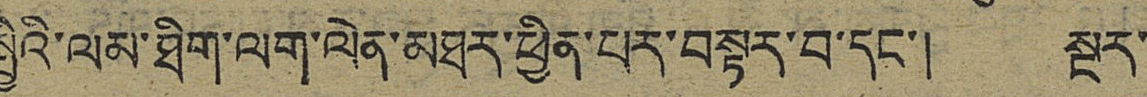སྤྱིའི་ལམ་ཐིག་ལག་ལེན་མཐར་ཕྱིན་པར་བསྟར་བ་དང་། སྔར་
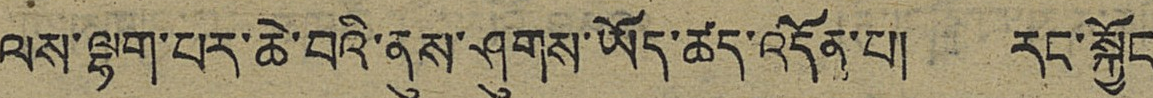ལས་ལྷག་པར་ཆེ་བའི་ནུས་ཤུགས་ཡོད་ཚད་འདོན་པ། རང་སྐྱོང་
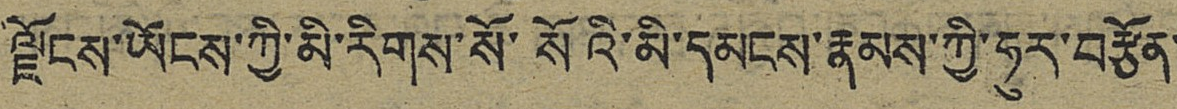ལྗོངས་ཡོངས་ཀྱི་མི་རིགས་སོ་སོའི་མི་དམངས་རྣམས་ཀྱི་ཧུར་བརྩོན་
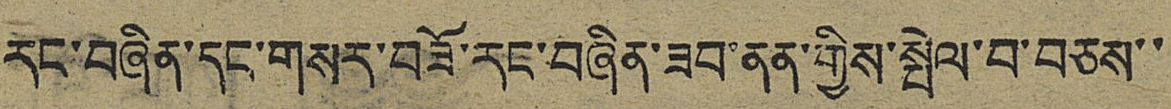རང་བཞིན་དང་གསར་བཟོ་རང་བཞིན་ཟབ་ནན་གྱིས་སྤེལ་བ་བཅས་་
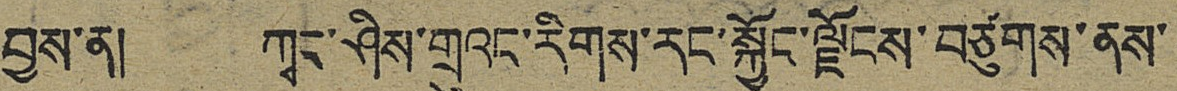བྱས་ན། ཀྭང་ཤིས་གྲུའང་རིགས་རང་སྐྱོང་ལྗོངས་བཙུགས་ནས་
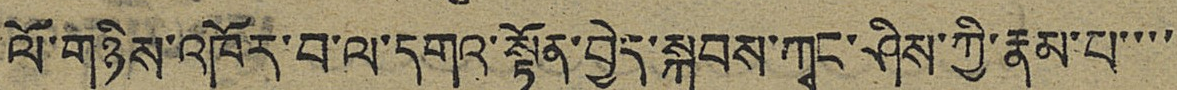ལོ་གཉིས་འཁོར་བ་ལ་དགའ་སྟོན་བྱེད་སྐབས་ཀྭང་ཤིས་ཀྱི་རྣམ་པ་་་་
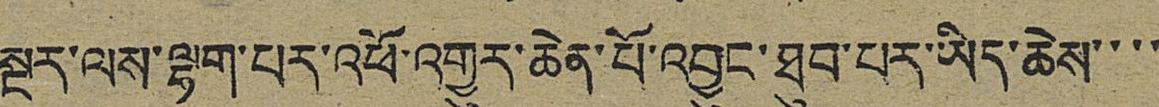སྔར་ལས་ལྷག་པར་འཕོ་འགྱུར་ཆེན་པོ་འབྱུང་ཐུབ་པར་ཡིད་ཆེས་་་་
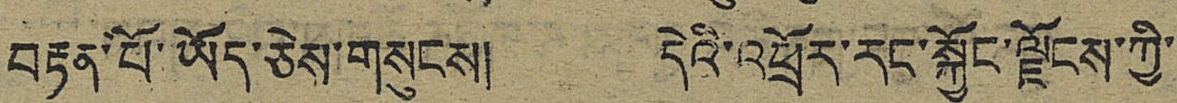བརྟན་པོ་ཡོད་ཅེས་གསུངས། དེའི་འཕྲོར་རང་སྐྱོང་ལྗོངས་ཀྱི་
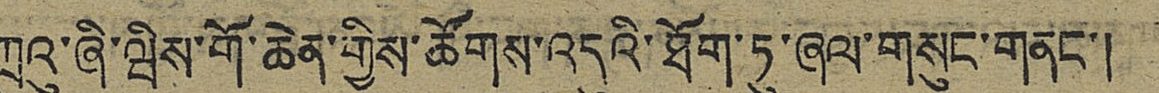ཀྲུའུ་ཞི་ཝིས་གོ་ཆེན་གྱིས་ཚོགས་འདུའི་ཐོག་ཏུ་ཞལ་གསུང་གནང་།
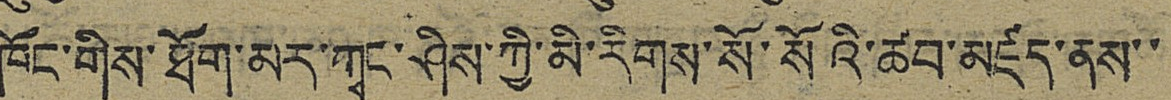ཁོང་གིས་ཐོག་མར་ཀྭང་ཤིས་ཀྱི་མི་རིགས་སོ་སོའི་ཚབ་མཛད་ནས་་
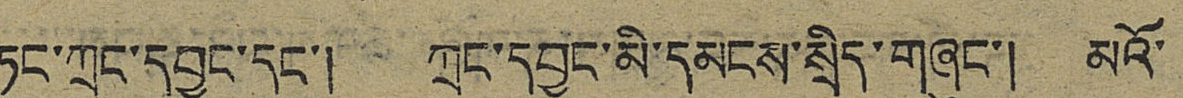ཏང་ཀྲུང་དབྱང་དང་། ཀྲུང་དབྱང་མི་དམངས་སྲིད་གཞུང་། མའོ་
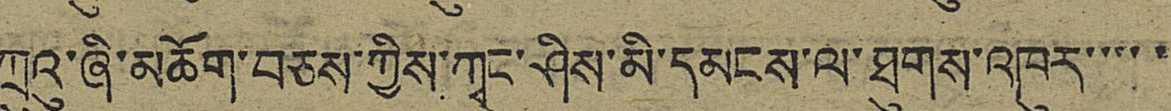ཀྲུའུ་ཞི་མཆོག་བཅས་ཀྱིས་ཀྭང་ཤིས་མི་དམངས་ལ་ཐུགས་འཁུར་་་་་
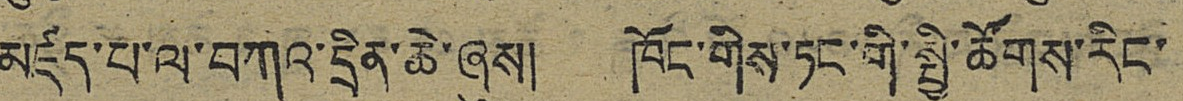མཛད་པ་ལ་བཀའ་དྲིན་ཆེ་ཞུས། ཁོང་གིས་ཏང་གི་སྤྱི་ཚོགས་རིང་
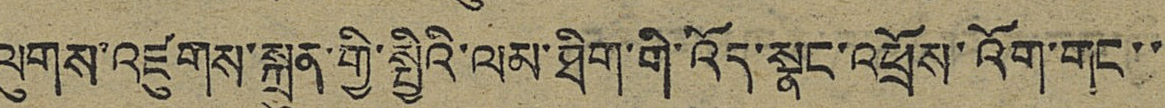ལུགས་འཛུགས་སྐྲུན་ཀྱི་སྤྱིའི་ལམ་ཐིག་གི་འོད་སྣང་འཕྲོས་འོག་གང་་
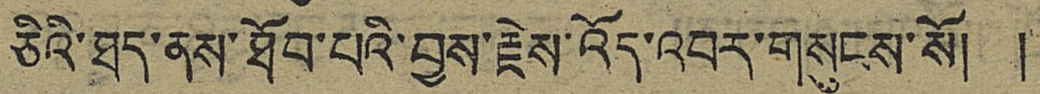ཅིའི་ཐད་ནས་ཐོབ་པའི་བྱས་རྗེས་འོད་འབར་གསུངས་སོ། །
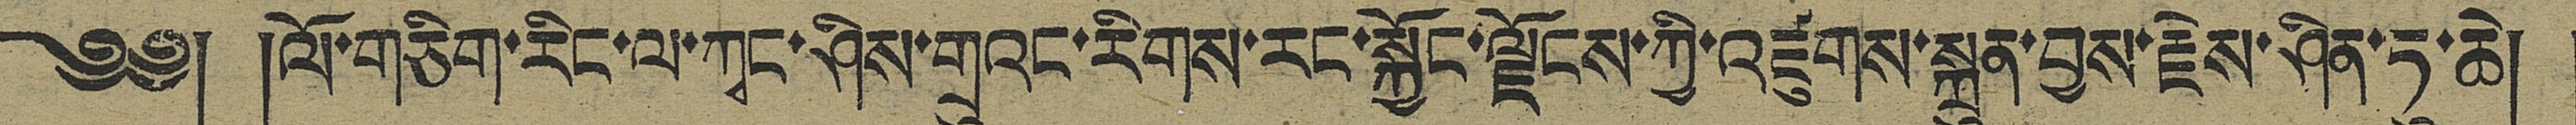༄༅། །ལོ་གཅིག་རིང་ལ་ཀྭང་ཤིས་གྲུའང་རིགས་རང་སྐྱོང་ལྗོངས་ཀྱི་འཛུགས་སྐྲུན་བྱས་རྗེས་ཤིན་ཏུ་ཆེ། །
